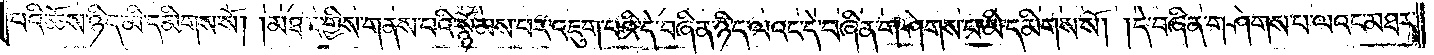པའི་ཆོས་ཉིད་མི་དམིགས་སོ། །མཐར་གྱིས་གནས་པའི་སྙོམས་པར་འཇུག་པའི་དེ་བཞིན་ཉིད་ལའང་དེ་བཞིན་གཤེགས་པ་མི་དམིགས་སོ། །དེ་བཞིན་གཤེགས་པ་ལའང་མཐར་
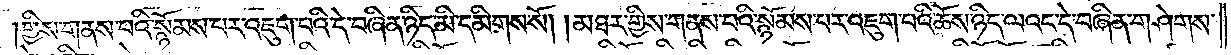གྱིས་གནས་པའི་སྙོམས་པར་འཇུག་པའི་དེ་བཞིན་ཉིད་མི་དམིགས་སོ། །མཐར་གྱིས་གནས་པའི་སྙོམས་པར་འཇུག་པའི་ཆོས་ཉིད་ལའང་དེ་བཞིན་གཤེགས་
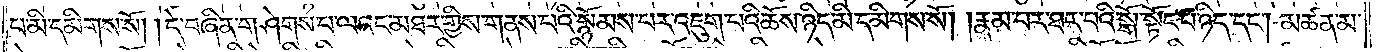པ་མི་དམིགས་སོ། །དེ་བཞིན་གཤེགས་པ་ལའང་མཐར་གྱིས་གནས་པའི་སྙོམས་པར་འཇུག་པའི་ཆོས་ཉིད་མི་དམིགས་སོ། །རྣམ་པར་ཐར་པའི་སྒོ་སྟོང་པ་ཉིད་དང༌། མཚན་མ་
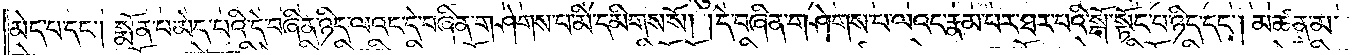མེད་པ་དང༌། སྨོན་པ་མེད་པའི་དེ་བཞིན་ཉིད་ལའང་དེ་བཞིན་གཤེགས་པ་མི་དམིགས་སོ། །དེ་བཞིན་གཤེགས་པ་ལའང་རྣམ་པར་ཐར་པའི་སྒོ་སྟོང་པ་ཉིད་དང༌། མཚན་མ་
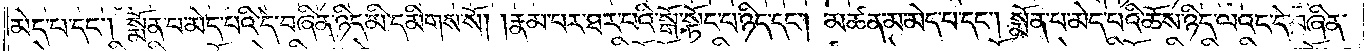མེད་པ་དང༌། སྨོན་པ་མེད་པའི་དེ་བཞིན་ཉིད་མི་དམིགས་སོ། །རྣམ་པར་ཐར་པའི་སྒོ་སྟོང་པ་ཉིད་དང༌། མཚན་མ་མེད་པ་དང༌། སྨོན་པ་མེད་པའི་ཆོས་ཉིད་ལའང་དེ་བཞིན་
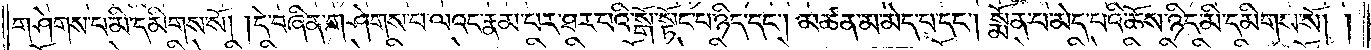གཤེགས་པ་མི་དམིགས་སོ། །དེ་བཞིན་གཤེགས་པ་ལའང་རྣམ་པར་ཐར་པའི་སྒོ་སྟོང་པ་ཉིད་དང༌། མཚན་མ་མེད་པ་དང༌། སྨོན་པ་མེད་པའི་ཆོས་ཉིད་མི་དམིགས་སོ། །
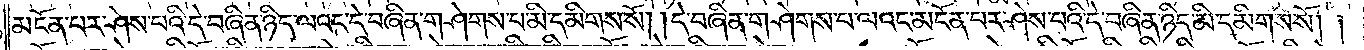མངོན་པར་ཤེས་པའི་དེ་བཞིན་ཉིད་ལའང་དེ་བཞིན་གཤེགས་པ་མི་དམིགས་སོ། །དེ་བཞིན་གཤེགས་པ་ལའང་མངོན་པར་ཤེས་པའི་དེ་བཞིན་ཉིད་མི་དམིགས་སོ། །
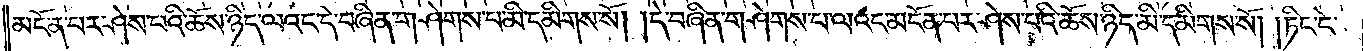མངོན་པར་ཤེས་པའི་ཆོས་ཉིད་ལའང་དེ་བཞིན་གཤེགས་པ་མི་དམིགས་སོ། །དེ་བཞིན་གཤེགས་པ་ལའང་མངོན་པར་ཤེས་པའི་ཆོས་ཉིད་མི་དམིགས་སོ། །ཏིང་ངེ་
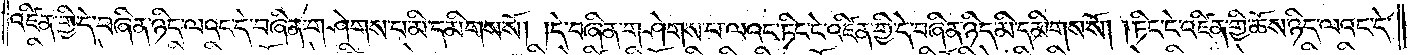འཛིན་གྱི་དེ་བཞིན་ཉིད་ལའང་དེ་བཞིན་གཤེགས་པ་མི་དམིགས་སོ། །དེ་བཞིན་གཤེགས་པ་ལའང་ཏིང་ངེ་འཛིན་གྱི་དེ་བཞིན་ཉིད་མི་དམིགས་སོ། །ཏིང་ངེ་འཛིན་གྱི་ཆོས་ཉིད་ལའང་དེ་
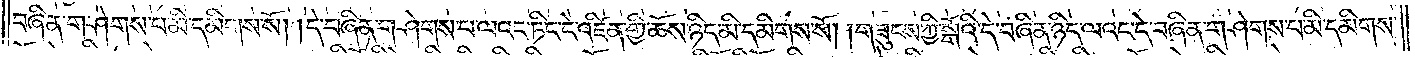བཞིན་གཤེགས་པ་མི་དམིགས་སོ། །དེ་བཞིན་གཤེགས་པ་ལའང་ཏིང་ངེ་འཛིན་གྱི་ཆོས་ཉིད་མི་དམིགས་སོ། །གཟུངས་ཀྱི་སྒོའི་དེ་བཞིན་ཉིད་ལའང་དེ་བཞིན་གཤེགས་པ་མི་དམིགས་
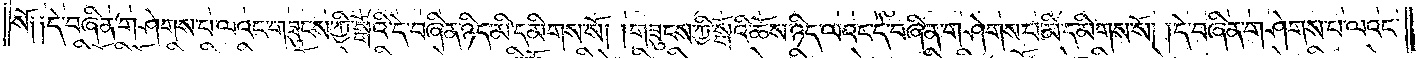སོ། །དེ་བཞིན་གཤེགས་པ་ལའང་གཟུངས་ཀྱི་སྒོའི་དེ་བཞིན་ཉིད་མི་དམིགས་སོ། །གཟུངས་ཀྱི་སྒོའི་ཆོས་ཉིད་ལའང་དེ་བཞིན་གཤེགས་པ་མི་དམིགས་སོ། །དེ་བཞིན་གཤེགས་པ་ལའང་
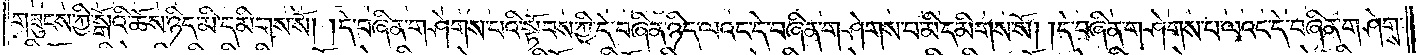གཟུངས་ཀྱི་སྒོའི་ཆོས་ཉིད་མི་དམིགས་སོ། །དེ་བཞིན་གཤེགས་པའི་སྟོབས་ཀྱི་དེ་བཞིན་ཉིད་ལའང་དེ་བཞིན་གཤེགས་པ་མི་དམིགས་སོ། ། དེ་བཞིན་གཤེགས་པ་ལའང་དེ་བཞིན་གཤེགས་
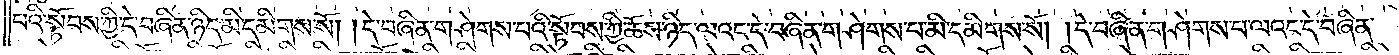པའི་སྟོབས་ཀྱི་དེ་བཞིན་ཉིད་མི་དམིགས་སོ། །དེ་བཞིན་གཤེགས་པའི་སྟོབས་ཀྱི་ཆོས་ཉིད་ལའང་དེ་བཞིན་གཤེགས་པ་མི་དམིགས་སོ། །དེ་བཞིན་གཤེགས་པ་ལའང་དེ་བཞིན་
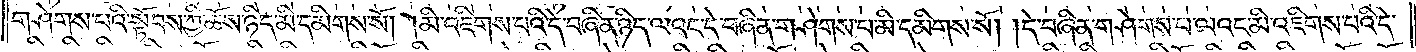གཤེགས་པའི་སྟོབས་ཀྱི་ཆོས་ཉིད་མི་དམིགས་སོ། །མི་འཇིགས་པའི་དེ་བཞིན་ཉིད་ལའང་དེ་བཞིན་གཤེགས་པ་མི་དམིགས་སོ། །དེ་བཞིན་གཤེགས་པ་ལའང་མི་འཇིགས་པའི་དེ་
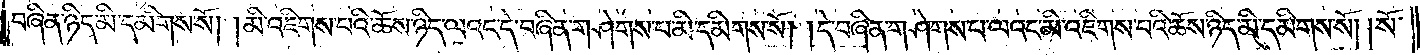བཞིན་ཉིད་མི་དམིགས་སོ། །མི་འཇིགས་པའི་ཆོས་ཉིད་ལའང་དེ་བཞིན་གཤེགས་པ་མི་དམིགས་སོ། །དེ་བཞིན་གཤེགས་པ་ལའང་མི་འཇིགས་པའི་ཆོས་ཉིད་མི་དམིགས་སོ། །སོ་
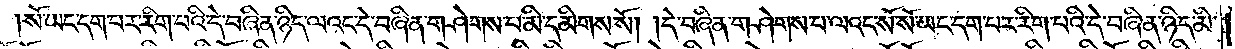སོ་ཡང་དག་པར་རིག་པའི་དེ་བཞིན་ཉིད་ལའང་དེ་བཞིན་གཤེགས་པ་མི་དམིགས་སོ། །དེ་བཞིན་གཤེགས་པ་ལའང་སོ་སོ་ཡང་དག་པར་རིག་པའི་དེ་བཞིན་ཉིད་མི་
